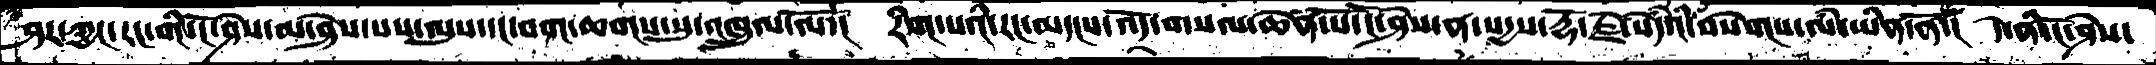ཤར་ཀྱང་རང་གི་ངོ་ཤེས་མ་ཤེས་པས་ལུས་དང་བག་ཆགས་སུ་འཁྲུལ་ལོ་།  རིག་པའི་རང་མདངས་འོད་གསལ་ཆེན་པོ་ངོ་ཤེས་ན་སདྱས་རྡོ་རྗེ་སེདཾའ་བསེགས་ལཾ་ཡིན་ནོ་།  དེ་ནི་ངོ་ཤེས་
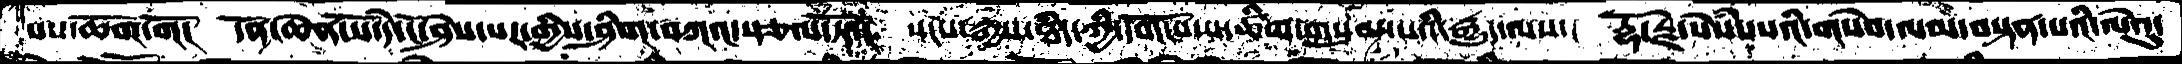པས་ཆོག་གོ།  དོན་ཆེན་པོ་དེ་ངོ་ཤེས་པར་གྱིས་ཤིག་བཀའ་སྩལ་ཏོ་།  སངས་རྒྱས་ཐདཾ་ཀྱི་དགོངས་པ་ཚིག་གསུམ་པའི་རྒྱུད་ལས་།  རྡོ་རྗེ་སེསཾ་དཔའི་གསེབ་ལམ་བསྟན་པའི་ལེའུ་
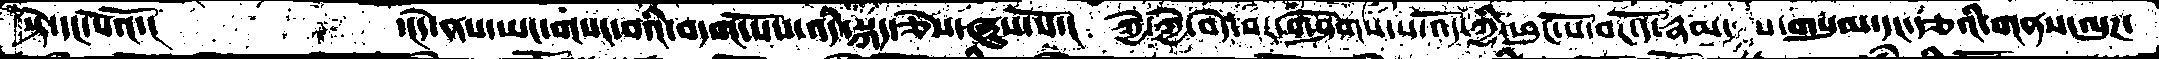སྟེ་དང་པོའོ་།     ་།དེ་ནས་ཡང་གསང་བའི་བདག་པོས་འདི་སྐད་ཅེས་ཞུས་སོ་། ཀྱེ་ཀྱེ་བདེ་བར་གཤེགས་པ་འོད་ཀྱི་ཕུང་པོ་བར་དོ་རྣམ་  པ་གསུམ་དང་རྩའི་གནས་ལུཌ་
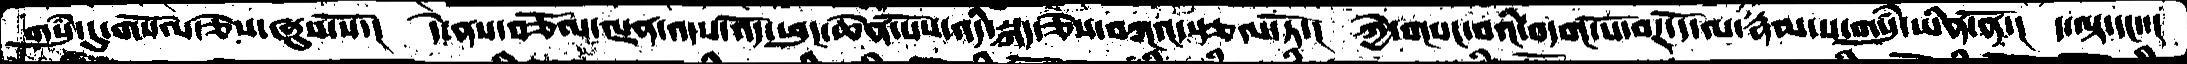གསུཾ་དུ་གསོལ་ཅེས་ཞུས་སོ་།  དེ་ནས་བཅོམ་ལྡན་འདས་འོད་ཕུང་ཆེན་པོས་འདི་སྐད་ཅེས་བཀའ་སྩལ་ཏོ་།  ཀྱེ་གསང་བའི་བདག་པོ་བར་དོ་ལ་རྣམ་པ་གསུཾ་ཡིན་ནོ་།  ད་ལྟ་དང་་།
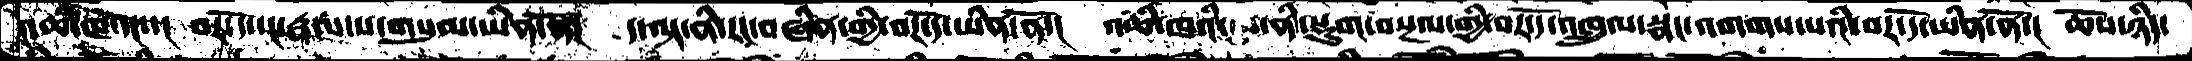འཆི་ཁ་དང་་།  བར་དོ་དང་རྣམ་པ་གསུམ་ཡིན་ནོ།  ད་ལྟ་ནི་རང་བཞིན་གྱི་བར་དོ་ཡིན་ནོ་།  འཆི་ཁའི་  ནི་སྡུག་བསྔལ་གྱི་བར་དོ་འཁྲུལ་སྣང་འགགས་པའི་བར་དོ་ཡིན་ནོ་།  ཆོས་ཉིད་
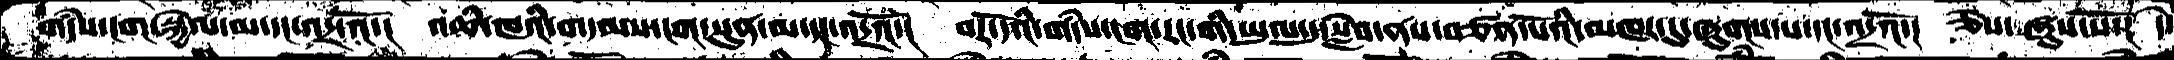གདཾས་ངག་སྐྱེལ་མ་དང་འདྲ་འོ་།  འཆི་ཁའི་གདམས་ངག་སུན་མ་དང་འདྲའོ་།  བར་དོའི་གདཾས་ངག་རང་གི་ཡུལ་དུ་སླེབ་ནས་བཙན་པོའི་མཁར་དུ་ཞུགས་པ་དང་འདྲའོ་།  ཅེས་ཞུས་སོ་།  དེ་
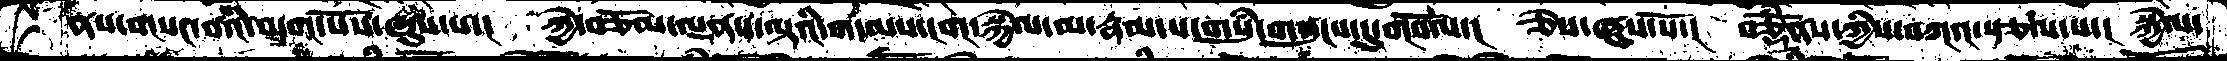ནས་གསང་བའི་བདག་པོས་ཞུས་པ་།  ཀྱེ་བཅོམ་ལྡནས་ལྟའི་གདམས་ངག་སྐྱེལ་མ་རྣམ་པ་གསུཾ་གསུངས་དུ་གསོལ་།  ཅེས་ཞུས་སོ་།  བཅྡོྃནས་ཀྱིས་བཀའ་སྩལ་པ་།  སྐྱེལ་
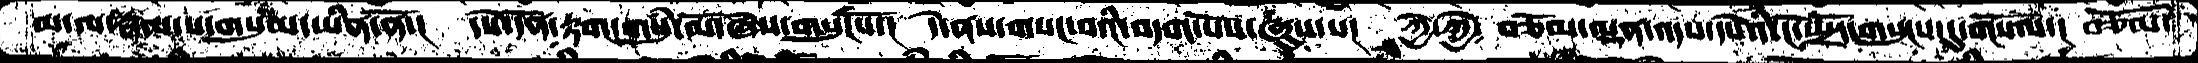མ་ལ་རྣམ་པ་གསུམ་ཡིན་ནོ་།  དཔེ་དོན་རྟག་གསུཾ་མོ་ཞེས་གསུངསོ་།  དེ་ནས་གསང་བའི་བདག་པོས་ཞུས་པ།  ཀྱེ་ཀྱེ་ བཅོམ་ལྡན་འདས་དཔེའི་ངོ་སྤྲོད་གསུངས་དུ་གསོལ་།  བཅོམ་
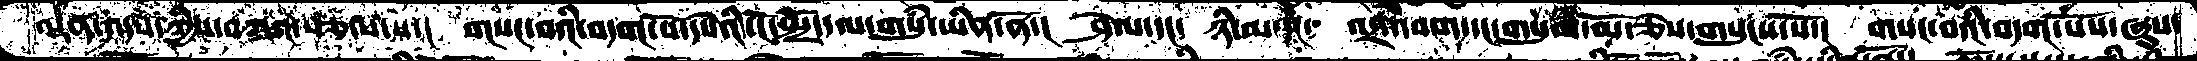ལྡན་འདས་ཀྱིས་བཀའ་སྩལ་པ་། གསང་བའི་བདག་པོ་དཔེའི་ངོ་སྤྲོད་ལ་གསུཾ་ཡིན་ནོ་།  ཤེལ་དང༴ ཉི་མ་དང༴ འདྲ་འབག་དང་གསུམ་མོ་ཅེས་གསུངས་སོ་།  གསང་བའི་བདག་པོས་ཞུས་
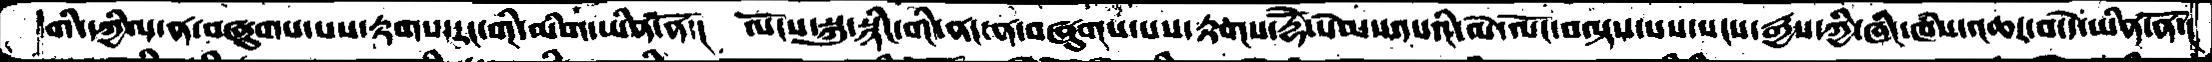གི་དཀྱིལ་ན་བཞུགས་པས་རྟགས་རང་གི་མིག་ཡིན་ནོ་།  ལོངས་སྐུ་སྙིང་གི་ནང་ན་བཞུགས་པས་རྟགས་རྡོེ་སེམས་དཔའི་མེ་ལོང་བལྟས་པས་སངས་རྒྱས་ཀྱི་ཞིང་ཁཾས་འཆར་བ་དེ་ཡིན་ནོ་།
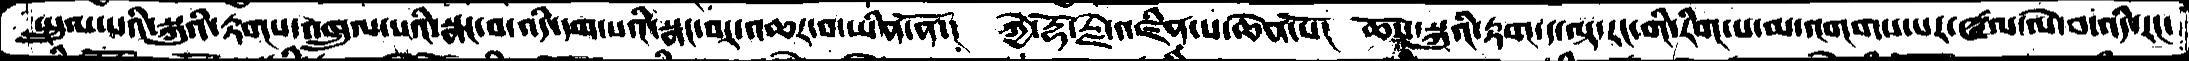སྤྲུལ་པའི་སྐུའི་རྟགས་འཁྲུལ་པའི་སྣང་བ་འདི་དག་པའི་སྣང་བར་འཆར་བ་ཡིན་ནོ་།  ཀྱེ་རྡོ་རྗེ་འཛིན་པ་ཆེན་པོ།  ཆོས་སྐུའི་རྟག་ད་ལྟ་རང་གི་རིག་པ་མ་འགགས་པར་ཝལ་ལེ་བ་འདི་རང་
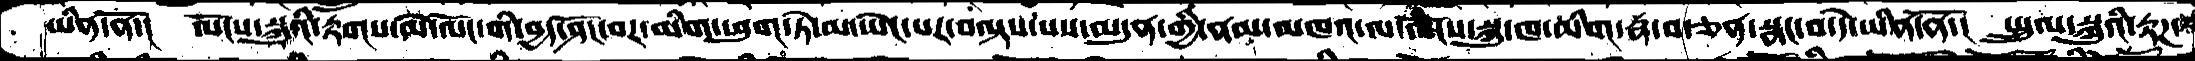ཡིན་ནོ་།  ལོངས་སྐུའི་རྟོགས་མེ་ལོང་གི་བྱད་ཤོང་བར་མིག་ཕུག་ཏེ་མ་ཡེང་པར་བལྟས་པས་མདུན་གྱི་ནམ་མཁའ་ལ་ལོངས་སྐུ་ཁ་མིག་རྣ་བ་ཅན་སྣང་བ་དེ་ཡིན་ནོ་།  སྤྲུལ་སྐུའི་རྟཌ
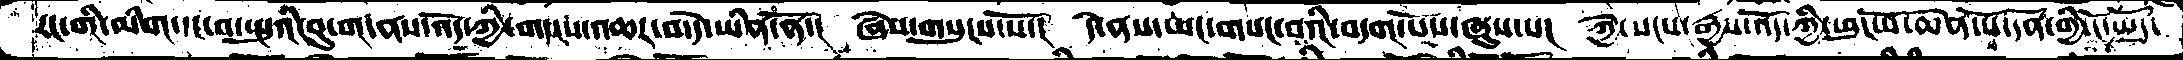རང་གི་མིག་དང་བ་སྤུའི་བུ་ག་ནས་འོད་ཀྱི་གདངས་འཆར་བ་དེ་ཡིན་ནོ་། ཞེས་གསུངས་སོ་།  དེ་ནས་ཡང་གསང་བའི་བདག་པོས་ཞུས་པ།  ཀྱེ་སངས་རྒྱས་འོད་ཀྱི་ཕུང་པོ་ཆེན་པོ་དོན་གྱི་ངོ་སྤྲོད་
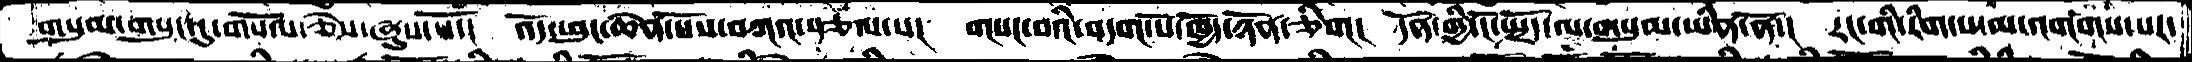གསུམ་གསུང་དུ་གསོལ་ཅེས་ཞུས་སོ་།  འོད་ཕུང་ཆེན་པོས་བཀའ་སྩལ་པ།  གསང་བའི་བདག་པོ་ཁྱོད་ཉོན་ཅིག།  དོན་གྱི་ངོ་སྤྲོད་ལ་གསུམ་ཡིན་ནོ་།  རང་གི་རིག་པ་མ་འགགས་པར་
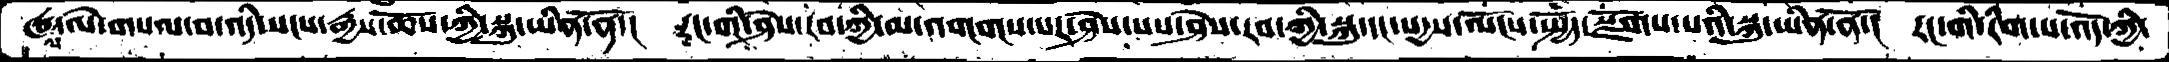ཝལ་ལེ་གསལ་བ་འདི་སངས་རྒྱས་ཆོས་ཀྱི་སྐུ་ཡིན་ནོ་། རང་གི་ཤེས་རབ་ཀྱི་མ་འགགས་པར་ཤེས་པས་ཤེས་རབ་ཀྱི་སྐུ་དང་སདྱས་ལོངས་སྤྱོད་སྫོགས་པའི་སྐུ་ཡིན་ནོ་། རང་གི་རིག་པ་འོད་ཀྱི་
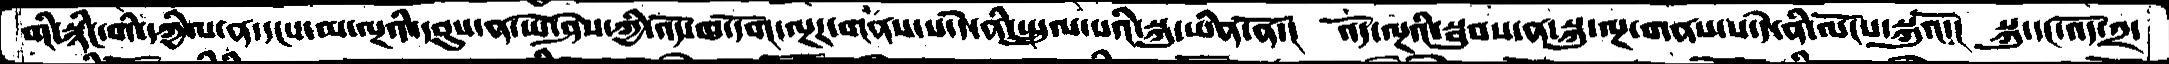གི་སྙིང་གི་དཀྱིལ་ན་དངས་མ་ལྔའི་དབུས་ན་ཡེ་ཤེས་ཀྱི་འོད་ཁ་དོག་ལྔར་གནས་པ་དེ་ནི་སྤྲུལ་པའི་སྐུ་ཡིན་ནོ་།     འོད་ལྔའི་སྦུབས་ན་སྐུ་ལྔ་གནས་པ་དེ་ནི་ལོངས་སྐུའོ་།   སྐུ་དང་འོད་༢་
